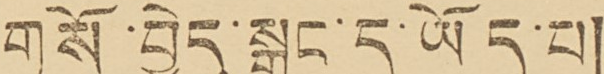གསོ་བྱེད་སྒང་དུ་ཡོད་པ།
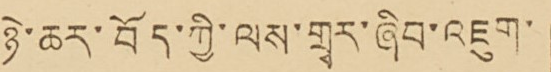ཉེ་ཆར་བོད་ཀྱི་ལས་གྲྭར་ཞིབ་འཇུག་
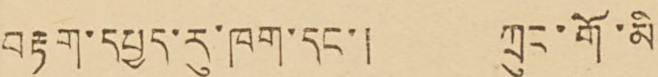བརྟག་དཔྱད་རུ་ཁག་དང་། ཀྲུང་གོ་མི་
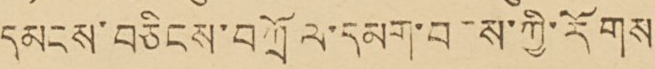དམངས་བཅིངས་བཀྲོལ་དམགས་ཀྱི་རོགས་
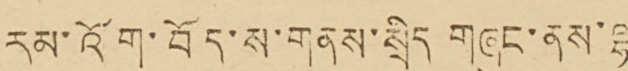རམ་འོག་བོད་ས་གནས་སྲིད གཞུང་ནས་ལྷ་་
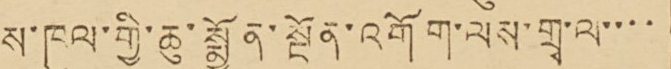ས་ཁུལ་གྱི་ཆུ་སྨྱོན་སྔོན་འགོག་ལས་གྲྭ་ལ་་་་
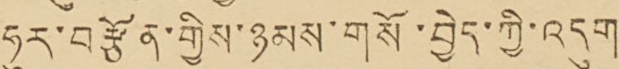ཧུར་བརྩོན་གྱིས་ཉམས་གསོ་བྱེད་ཀྱི་འདུག
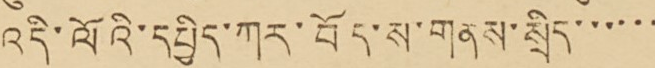འདི་ལོའི་དཔྱིད་ཀར་བོད་ས་གནས་སྲིད་་་་་་
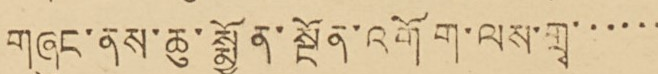གཞུང་ནས་ཆུ་སྨྱོན་སྔོན་འགོག་ལས་གྲྭ་་་་་་
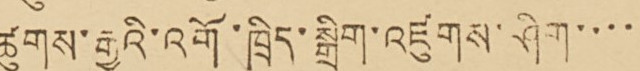ཚུགས་རྒྱུའི་འགོ་ཁྲིད་སྒྲིག་འཛུགས་ཤིག་་་་་
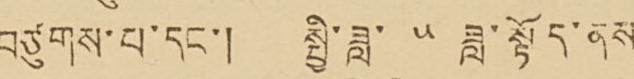བཙུགས་པ་དང་། སྤྱི་ཟླ་ ༥ ཟླ་སྟོད་ནས
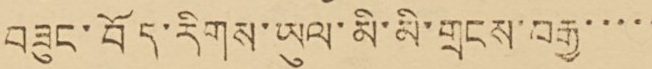བཟུང་བོད་རིགས་ཡུལ་མི་མི་གྲངས་བརྒྱ་་་་་
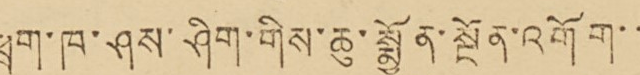ཕྲག་ཁ་ཤས་ཤིག་གིས་ཆུ་སྨྱོན་སྔོན་འགོག་་
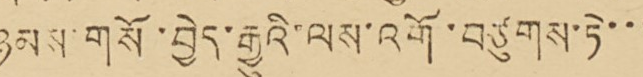ཉམས་གསོ་བྱེད་རྒྱུའི་ལས་འགོ་བཙུགས་ཏེ་་་
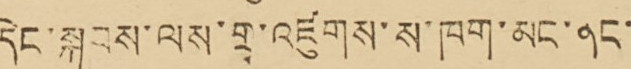དེང་སྐབས་ལས་གྲྭ་འཛུགས་ས་ཁག་མང་ནང་་
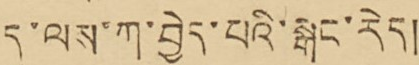དུ་ལས་ཀ་བྱེད་པའི་སྒང་རེད།
